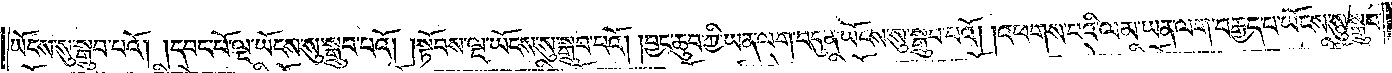ཡོངས་སུ་སྒྲུབ་པའོ། །དབང་པོ་ལྔ་ཡོངས་སུ་སྒྲུབ་པའོ། །སྟོབས་ལྔ་ཡོངས་སུ་སྒྲུབ་པའོ། །བྱང་ཆུབ་ཀྱི་ཡན་ལག་བདུན་ཡོངས་སུ་སྒྲུབ་པའོ། །འཕགས་པའི་ལམ་ཡན་ལག་བརྒྱད་པ་ཡོངས་སུ་སྒྲུབ་
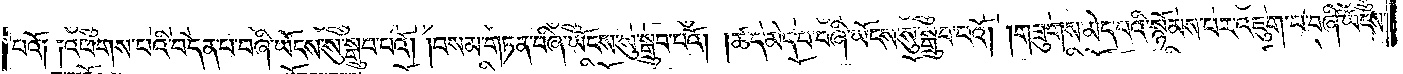པའོ༑ ༑འཕགས་པའི་བདེན་པ་བཞི་ཡོངས་སུ་སྒྲུབ་པའོ། །བསམ་གཏན་བཞི་ཡོངས་སུ་སྒྲུབ་པའོ། །ཚད་མེད་པ་བཞི་ཡོངས་སུ་སྒྲུབ་པའོ། །གཟུགས་མེད་པའི་སྙོམས་པར་འཇུག་པ་བཞི་ཡོངས་
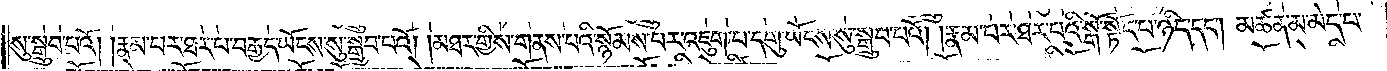སུ་སྒྲུབ་པའོ། །རྣམ་པར་ཐར་པ་བརྒྱད་ཡོངས་སུ་སྒྲུབ་པའོ། །མཐར་གྱིས་གནས་པའི་སྙོམས་པར་འཇུག་པ་དགུ་ཡོངས་སུ་སྒྲུབ་པའོ། །རྣམ་པར་ཐར་པའི་སྒོ་སྟོང་པ་ཉིད་དང༌། མཚན་མ་མེད་པ་
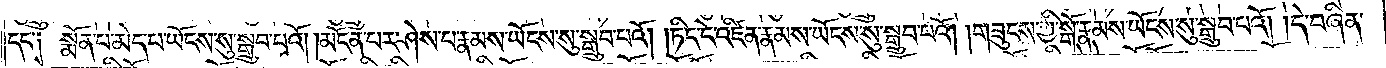དང༌། སྨོན་པ་མེད་པ་ཡོངས་སུ་སྒྲུབ་པའོ། །མངོན་པར་ཤེས་པ་རྣམས་ཡོངས་སུ་སྒྲུབ་པའོ། །ཏིང་ངེ་འཛིན་རྣམས་ཡོངས་སུ་སྒྲུབ་པའོ། །གཟུངས་ཀྱི་སྒོ་རྣམས་ཡོངས་སུ་སྒྲུབ་པའོ། །དེ་བཞིན་
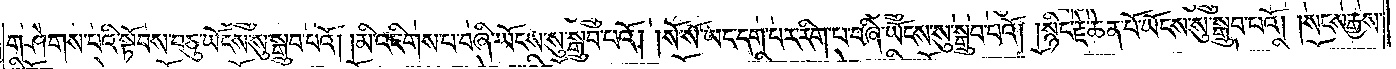གཤེགས་པའི་སྟོབས་བཅུ་ཡོངས་སུ་སྒྲུབ་པའོ། །མི་འཇིགས་པ་བཞི་ཡོངས་སུ་སྒྲུབ་པའོ། །སོ་སོ་ཡང་དག་པར་རིག་པ་བཞི་ཡོངས་སུ་སྒྲུབ་པའོ། །སྙིང་རྗེ་ཆེན་པོ་ཡོངས་སུ་སྒྲུབ་པའོ། །སངས་རྒྱས་
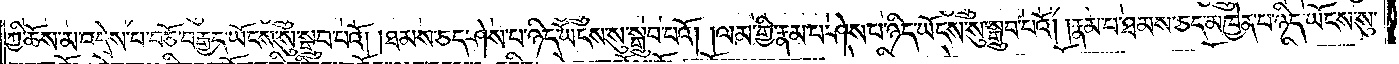ཀྱི་ཆོས་མ་འདྲེས་པ་བཅོ་བརྒྱད་ཡོངས་སུ་སྒྲུབ་པའོ། །ཐམས་ཅད་ཤེས་པ་ཉིད་ཡོངས་སུ་སྒྲུབ་པའོ། །ལམ་གྱི་རྣམ་པ་ཤེས་པ་ཉིད་ཡོངས་སུ་སྒྲུབ་པའོ། །རྣམ་པ་ཐམས་ཅད་མཁྱེན་པ་ཉིད་ཡོངས་སུ་
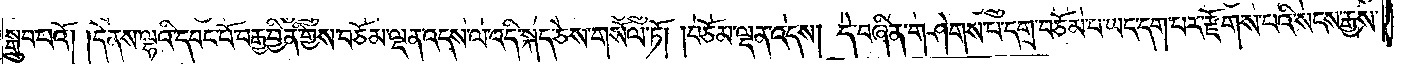སྒྲུབ་པའོ། །དེ་ནས་ལྷའི་དབང་པོ་བརྒྱ་བྱིན་གྱིས་བཅོམ་ལྡན་འདས་ལ་འདི་སྐད་ཅེས་གསོལ་ཏོ། །བཅོམ་ལྡན་འདས། དེ་བཞིན་གཤེགས་པ་དགྲ་བཅོམ་པ་ཡང་དག་པར་རྫོགས་པའི་སངས་རྒྱས་
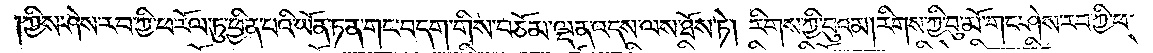ཀྱིས། ཤེས་རབ་ཀྱི་ཕ་རོལ་ཏུ་ཕྱིན་པའི་ཡོན་ཏན་གང་བདག་གིས་བཅོམ་ལྡན་འདས་ལས་ཐོས་ཏེ། རིགས་ཀྱི་བུའམ་རིགས་ཀྱི་བུ་མོ་གང་ཤེས་རབ་ཀྱི་ཕ་
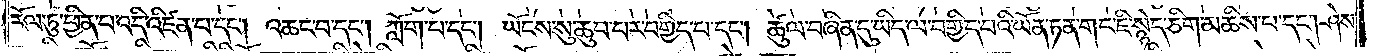རོལ་ཏུ་ཕྱིན་པ་འདི་འཛིན་པ་དང༌། འཆང་བ་དང༌། ཀློག་པ་དང༌། ཡོངས་སུ་ཆུབ་པར་བགྱིད་པ་དང༌། ཚུལ་བཞིན་དུ་ཡིད་ལ་བགྱིད་པའི་ཡོན་ཏན་གང་ཇི་སྙེད་ཅིག་མཆིས་པ་དང༌། ཤེས་
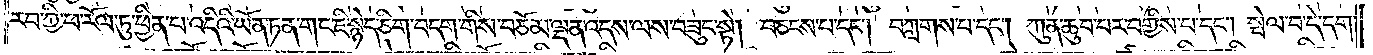རབ་ཀྱི་ཕ་རོལ་ཏུ་ཕྱིན་པ་འདིའི་ཡོན་ཏན་གང་ཇི་སྙེད་ཅིག་བདག་གིས་བཅོམ་ལྡན་འདས་ལས་བཟུང་སྟེ། བཅངས་པ་དང༌། བཀླགས་པ་དང༌། ཀུན་ཆུབ་པར་བགྱིས་པ་དང༌། སྤེལ་བ་དེ་དག་
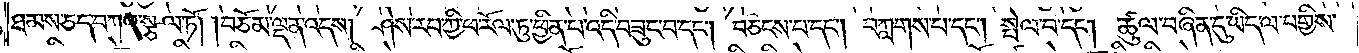ཐམས་ཅད་བཀའ་སྩལ་ཏོ། །བཅོམ་ལྡན་འདས། ཤེས་རབ་ཀྱི་ཕ་རོལ་ཏུ་ཕྱིན་པ་འདི་བཟུང་བ་དང༌། བཅངས་པ་དང༌། བཀླགས་པ་དང༌། སྤེལ་བ་དང༌། ཚུལ་བཞིན་དུ་ཡིད་ལ་བགྱིས་
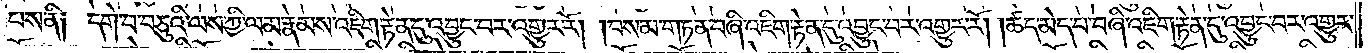པས་ནི། དགེ་བ་བཅུའི་ལས་ཀྱི་ལམ་རྣམས་འཇིག་རྟེན་དུ་འབྱུང་བར་འགྱུར་རོ། །བསམ་གཏན་བཞི་འཇིག་རྟེན་དུ་འབྱུང་བར་འགྱུར་རོ། །ཚད་མེད་པ་བཞི་འཇིག་རྟེན་དུ་འབྱུང་བར་འགྱུར་
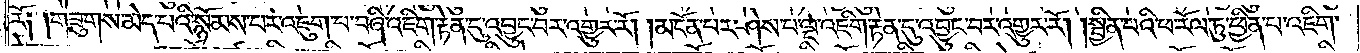རོ༎ གཟུགས་མེད་པའི་སྙོམས་པར་འཇུག་པ་བཞི་འཇིག་རྟེན་དུ་འབྱུང་བར་འགྱུར་རོ། །མངོན་པར་ཤེས་པ་ལྔ་འཇིག་རྟེན་དུ་འབྱུང་བར་འགྱུར་རོ། །སྦྱིན་པའི་ཕ་རོལ་ཏུ་ཕྱིན་པ་འཇིག་
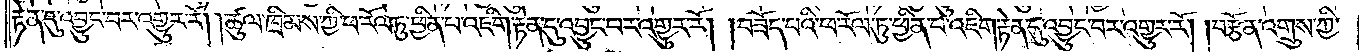རྟེན་དུ་འབྱུང་བར་འགྱུར་རོ། །ཚུལ་ཁྲིམས་ཀྱི་ཕ་རོལ་ཏུ་ཕྱིན་པ་འཇིག་རྟེན་དུ་འབྱུང་བར་འགྱུར་རོ། །བཟོད་པའི་ཕ་རོལ་ཏུ་ཕྱིན་པ་འཇིག་རྟེན་དུ་འབྱུང་བར་འགྱུར་རོ། །བརྩོན་འགྲུས་ཀྱི་
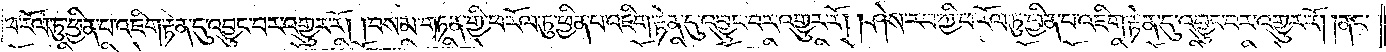ཕ་རོལ་ཏུ་ཕྱིན་པ་འཇིག་རྟེན་དུ་འབྱུང་བར་འགྱུར་རོ། །བསམ་གཏན་གྱི་ཕ་རོལ་ཏུ་ཕྱིན་པ་འཇིག་རྟེན་དུ་འབྱུང་བར་འགྱུར་རོ། །ཤེས་རབ་ཀྱི་ཕ་རོལ་ཏུ་ཕྱིན་པ་འཇིག་རྟེན་དུ་འབྱུང་བར་འགྱུར་རོ། །ནང་
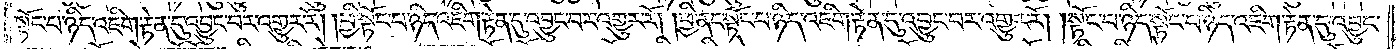སྟོང་པ་ཉིད་འཇིག་རྟེན་དུ་འབྱུང་བར་འགྱུར་རོ། །ཕྱི་སྟོང་པ་ཉིད་འཇིག་རྟེན་དུ་འབྱུང་བར་འགྱུར་རོ། །ཕྱི་ནང་སྟོང་པ་ཉིད་འཇིག་རྟེན་དུ་འབྱུང་བར་འགྱུར་རོ། །སྟོང་པ་ཉིད་སྟོང་པ་ཉིད་འཇིག་རྟེན་དུ་འབྱུང་
